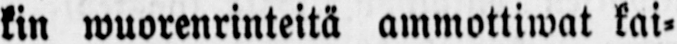kin wuorenrinteitä ammottiwat kai-
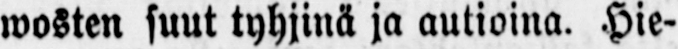wosten suut tyhjinä ja autioina. Hie-
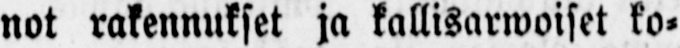not rakennukset ja kallisarwoiset ko-
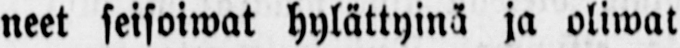neet seisoiwat hylättyinä ja oliwat
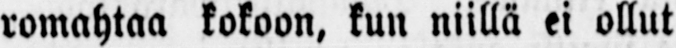romahtaa kokoon, kun niillä ei ollut
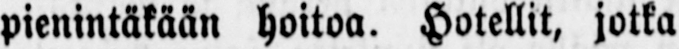pienintäkään hoitoa. Hotellit, jotka
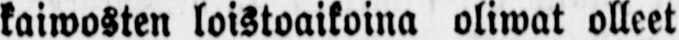kaiwosten loistoaikoina oliwat olleet
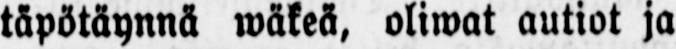täpötäynnä wäkeä, oliwat autiot ja
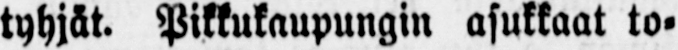tyhjät. Pikkukaupungin asukkaat to-
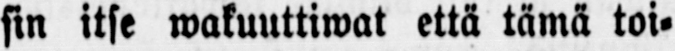sin itse wakuuttiwat että tämä toi-
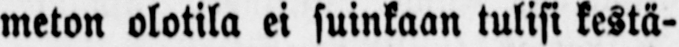meton olotila ei suinkaan tulisi kestä-
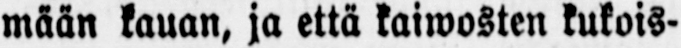mään kauan, ja että kaiwosten kukois-
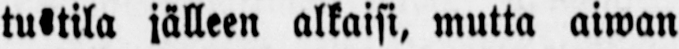tustila jälleen alkaisi, mutta aiwan
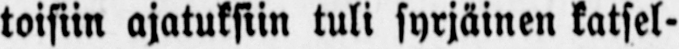toisiin ajatuksiin tuli syrjäinen katsel-
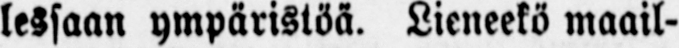lessaan ympäristöä. Lieneekö maail-
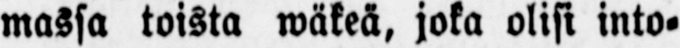massa toista wäkeä, joka olisi into-
